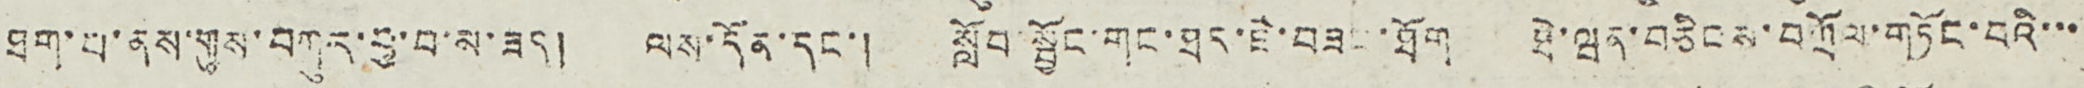ཐག་པ་ནས་གུས་བཀུར་བྱ་བ་པ་ཟད། ལས་དོན་དང་། སློབ་སྦྱོང་གང་ཐད་ཇེ་བཟང་ཐོག ཐེ་ཝན་བཅིངས་བཀྲོལ་གཏོང་བའི་་་
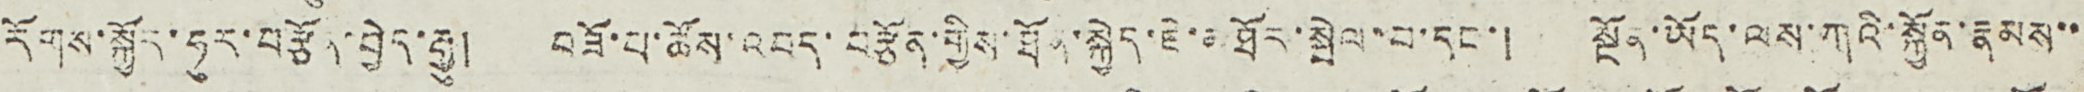རོགས་སྐྱོར་ཧུར་བརྩོན་བྱེད་རྒྱུ། བཟོ་པ་ཚོས་འབད་བརྩོན་གྱིས་ཐོན་སྐྱེད་ཇེ་མཐོར་སྤེལ་པ་དང་། སྔོན་ཡོད་ལས་ཀའི་སྐྱོན་རྣམས་་
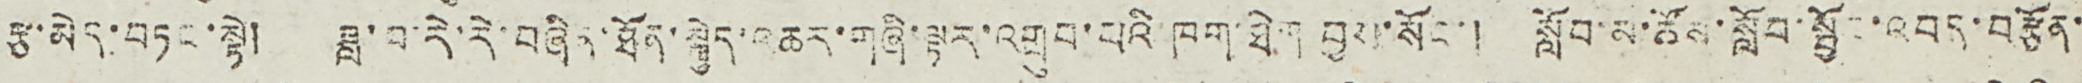རྩ་མེད་བཏང་སྟེ། ཟླ་བ་རེ་རེ་བཞིན་ཐོན་སྐྱེད་འཆར་གཞི་ལྟར་འགྲུབ་པའི་ཁག་ཐེག་བྱས་སོང་། སློབ་མ་ཚོས་སློབ་སྦྱོང་འབད་བརྩོན་
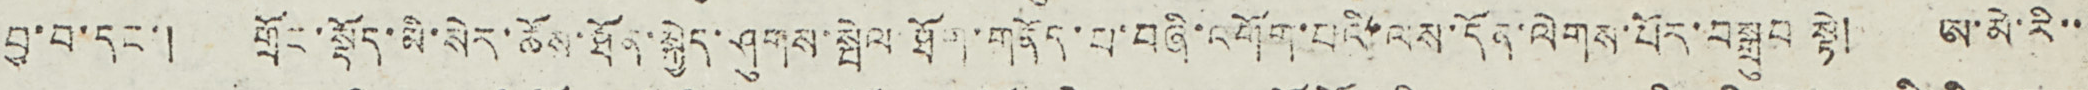བྱ་བ་དང་། གྲོང་སྡོད་མི་སེར་ཆོས་ཐོན་སྐྱེད་ཤུགས་སྤེལ་ཐོག་གནོད་པ་བཞི་འགོག་པའི་ལས་དོན་ལེགས་པོར་བསྒྲུབ སྟེ། ཨ་མེ་རི་་
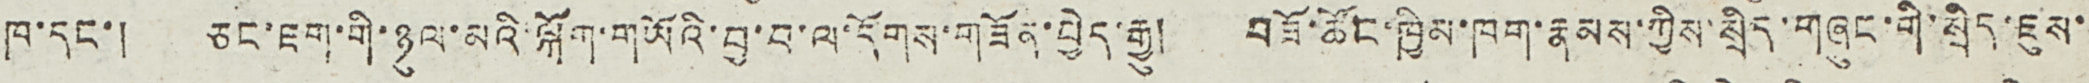ཁ་དང་། ཅང་ཇག་གི་ཉུལ་མའི་ལྐོག་གཡོའི་བྱ་བ་ལ་དོགས་གཟོན་བྱེད་རྒྱུ། བཟོ་ཚོང་ཁྱིམ་ཁག་རྣམས་ཀྱིས་སྲིད་གཞུང་གི་སྲིད་ཇུས་
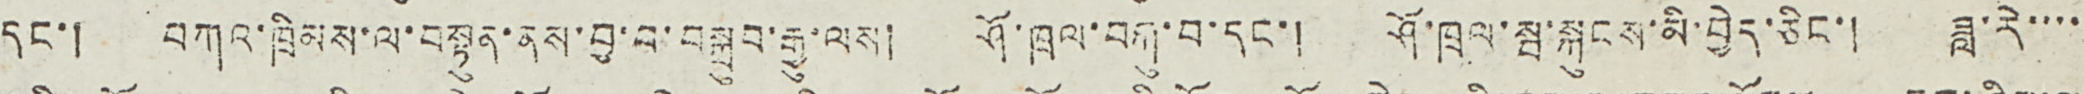དང་། བཀའ་ཁྲིམས་ལ་བསྟུན་ནས་བྱ་བ་བསྐྲུབ་རྒྱུ་ལས། ཤོ་ཁྲལ་བརྐུ་བ་དང་། ཤོ་ཁྲལ་སྦ་སྐུངས་མི་བྱེད་ཅིང་། ཟླ་རེ་་་་
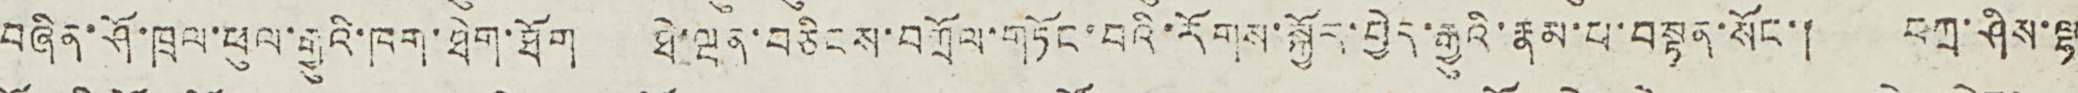བཞིན་ཤོ་ཁྲལ་ཕུལ་རྒྱུའི་ཁག་ཐེག་ཐོག ཐེ་ཝན་བཅིངས་བཀྲོལ་གཏོང་བའི་རོགས་སྐྱོར་བྱེད་རྒྱུའི་རྣམ་པ་བསྟན་སོང་། བཀྲ་ཤིས་ལྷ
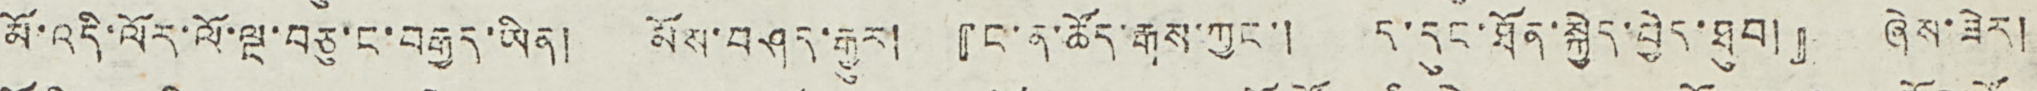མོ་འདི་ལོར་ལོ་ལྔ་བཅུ་ང་བརྒྱད་ཡིན། མོས་བཤད་རྒྱུར། 『ང་ན་ཚོད་རྒས་ཀྱང་། ད་དུང་ཐོན་སྐྱེད་བྱེད་ཐུབ།』 ཞེས་ཟེར།
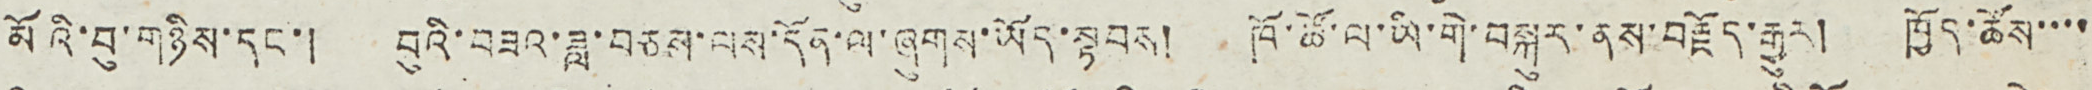མོའི་བུ་གཉིས་དང་། བུའི་བཟའ་ཟླ་བཅས་ལས་དོན་ལ་ཞུགས་ཡོད་སྟབས། ཁོ་ཚོ་ལ་ཡི་གེ་བསྐུར་ནས་བརྗོད་རྒྱུར། ཁྱོད་ཚོས་་་་
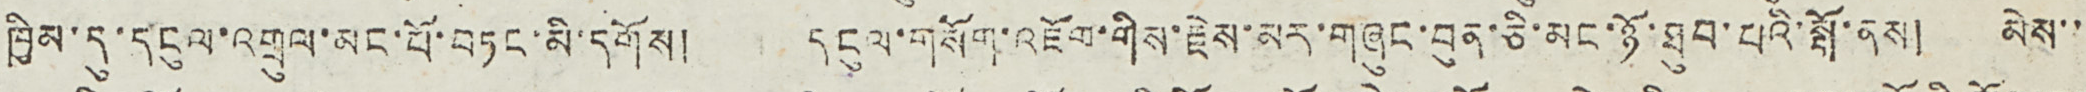ཁྱིམ་དུ་དངུལ་འགྲུལ་མང་པོ་བཏང་མི་དགོས། དངུལ་གསོག་འཇོག་གིས་རྗེས་མར་གཞུང་བུན་ཅི་མང་ཉོ་ཐུབ་པའི་སྒོ་ནས། མེས་་
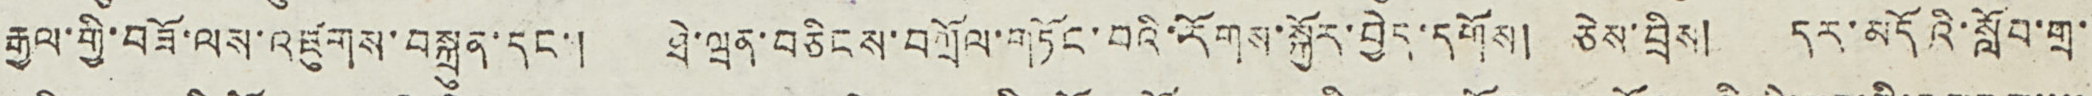རྒྱལ་གྱི་བཟོ་ལས་འཛུགས་བསྐྲུན་དང་། ཐེ་ཝན་བཅིངས་བཀྲོལ་གཏོང་བའི་རོགས་སྐྱོར་བྱེད་དགོས། ཅེས་བྲིས། དར་མདོའི་སློབ་གྲ་
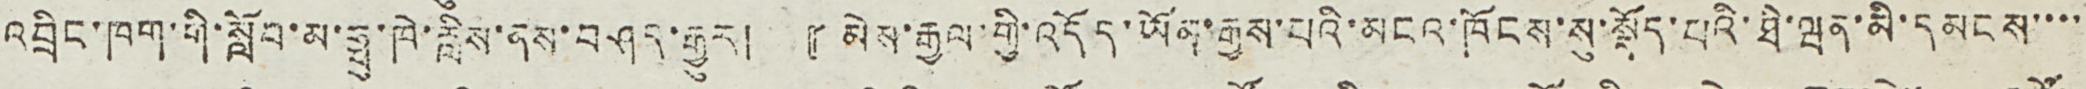འབྲིང་ཁག་གི་སློབ་མ་ཧྥུ་ཁེ་རླིས་ནས་བཤད་རྒྱུར། 『མེས་རྒྱལ་གྱི་འདོད་ཡོན་རྒྱས་པའི་མངའ་ཁོངས་སུ་སྡོད་པའི་ཐེ་ཝན་མི་དམངས་་་་
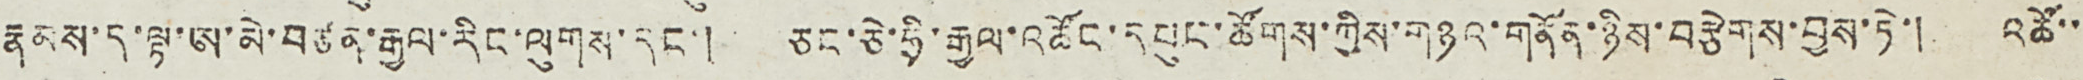རྣམས་ད་ལྟ་ཨ་མེ་བཙན་རྒྱལ་རིང་ལུགས་དང་། ཅང་ཅེ་ཧྲི་རྒྱལ་འཚོང་དཔུང་ཚོགས་ཀྱིས་གཉའ་གནོན་ཉིས་བརྩེགས་བྱས་ཏེ་། འཚོ་་
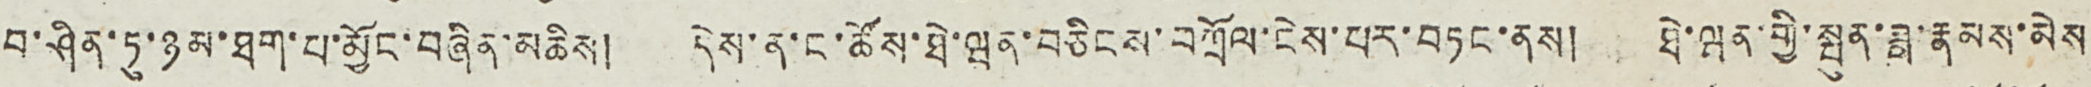བ་ཤིན་ཏུ་ཉམ་ཐག་པ་མྱོང་བཞིན་མཆིས། དེས་ན་ང་ཚོས་ཐེ་ཝན་བཅིངས་བཀྲོལ་ངེས་པར་བཏང་ནས། ཐེ་ཝན་གྱི་སྤུན་ཟླ་རྣམས་མེས
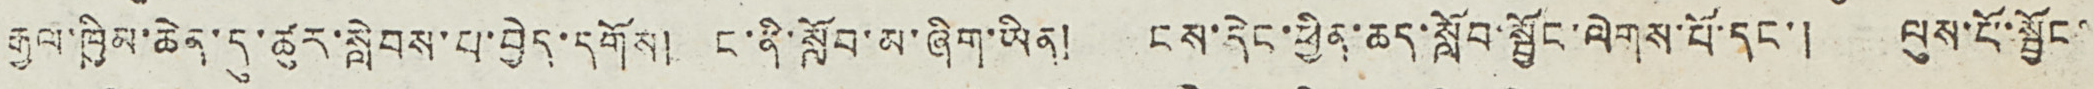རྒྱལ་ཁྱིམ་ཆེན་དུ་ཚུར་སླེབས་པ་བྱེད་དགོས། ང་ནི་སློབ་མ་ཞིག་ཡིན། ངས་དེང་ཕྱིན་ཆད་སློབ་སྦྱོང་ལེགས་པོ་དང་། ལུས་པོ་སྦྱོང་
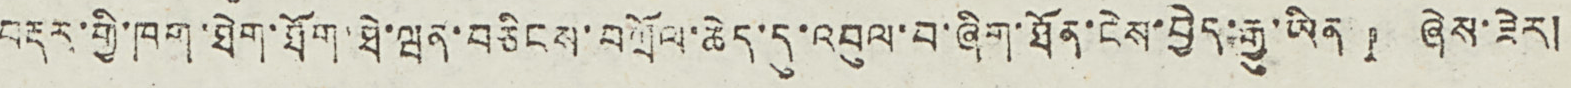བརྡར་གྱི་ཁག་ཐེག་ཐོག་ཐེ་ཝན་བཅིངས་བཀྲོལ་ཆེད་དུ་འབུལ་བ་ཞིག་ཐོན་ངེས་བྱེད་རྒྱུ་ཡིན།』ཞེས་ཟེར།
